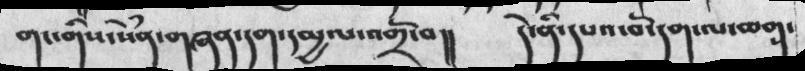གང་གིས་སེཾན་གཞན་དག་དམྱལ་འགྲོ་བ།།  དེ་ནི་དཔལ་བོ་དག་ལ་ཆག་
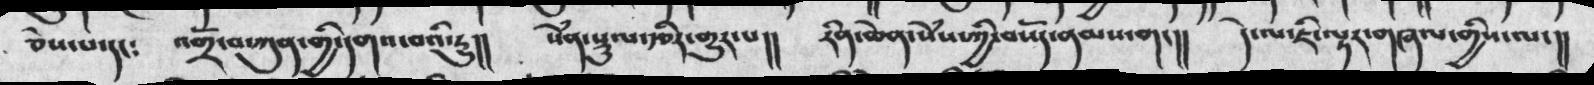ཅེས་པ་དང༴  འགྲོ་བ་ཀུན་གྱི་དགའ་བའི་རུ།།  སེཾན་སྡུལ་རྩིར་གྱུར་པ།།  རིན་ཆེན་སེཾས་ཀྱི་བསོད་ནམས་གང་།།  དེ་ལ་ཇི་ལྟར་གཞན་གྱིས་ལ་།།
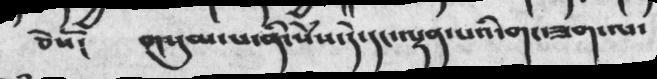ཅེསོ༴   གསུམ་པ་ནི་སེཾས་དེ་དང་ལྟན་པའི་གང་ཟག་ལ་
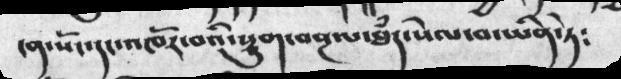ངན་སོང་དང་འཁོར་བའི་སྡུག་བསྔལ་ཐཾད་སེལ་བ་ཡིན་ཏེ༴
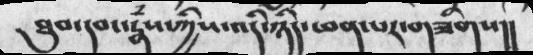ཐུབ་དབང་རྣཾས་ཀྱིས་འདི་ཉིད་ཕན་པར་གཟིགས།།
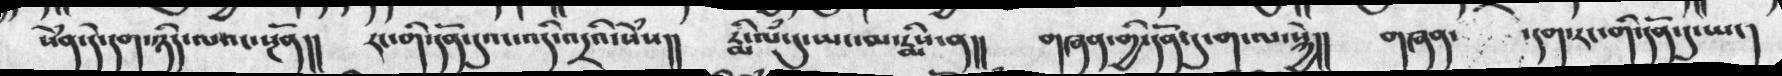སེཾན་དེ་དག་ཉིད་ལའང་སྔོན།།  རང་གི་དོན་དུའང་འདི་འདྲའི་སེཾས།།  རྨི་ལམ་དུ་ཡང་མ་རྨིས་ན།།  གཞན་གྱི་དོན་དུ་ག་ལ་སྐྱེ།།   གཞན་  དག་རང་གི་དོན་དུ་ཡང་།
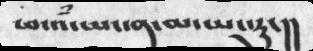ཕ་འཾ་ཡང་ན་མ་ཡང་རུང་།།
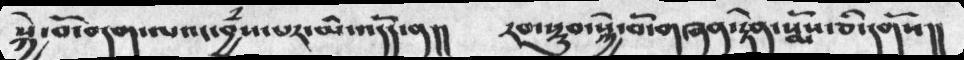སྐྱེ་བོ་བདག་ལའང་བྱཾས་པར་མི་འདོད་ན།།  རབ་སྡུབ་སྐྱེ་བོ་གཞན་རྟེན་སྨོས་ཅི་དགོས།།
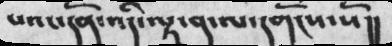པའང་དོན་འདི་ལྟ་ན་ལ་དགོངས་སོ།།
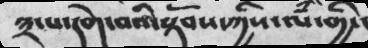༣་པ་དགེ་བའི་སྟོབས་ཀྱིས་ལཾ་གྱི་
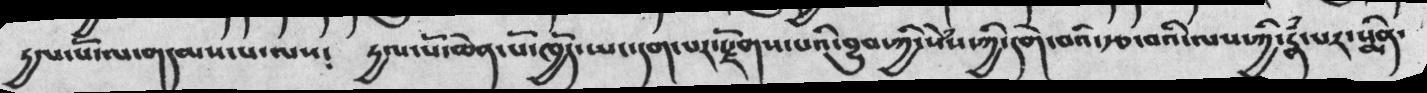དྱལ་པོ་གདམས་པ་ལས༴  དྱལ་པོ་ཆེན་པོ་ཁྱོད་ཡང་དག་པར་རྫོགས་པའི་བྱུབ་ཀྱི་སེཾས་ཀྱི་དགེ་བའི་རྩ་བའི་ལས་ཀྱི་རྣཾ་པར་སྨིན་
